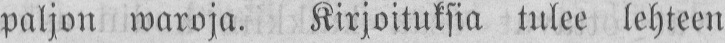paljon waroja. Kirjoituksia tulee lehteen
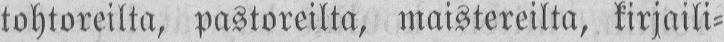tohtoreilta, pastoreilta, maistereilta, kirjaili-
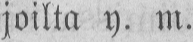joilta y. m.
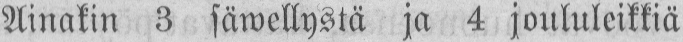Ainakin 3 säwellystä ja 4 joululeikkiä
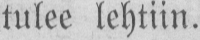tulee lehtiin.
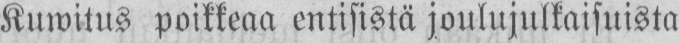Kuwitus poikkeaa entisistä joulujulkaisuista
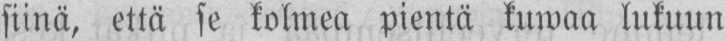siinä, että se kolmea pientä kuwaa lukuun
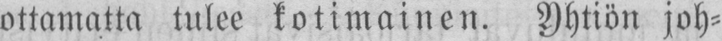ottamatta tulee kotimainen. Yhtiön joh-
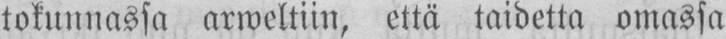tokunnassa arweltiin, että taidetta omassa
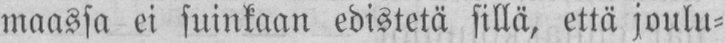maassa ei suinkaan edistetä sillä, että joulu-
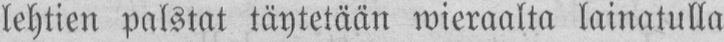lehtien palstat täytetään wieraalta lainatulla
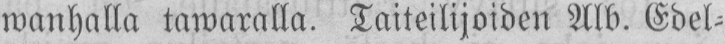wanhalla tawaralla. Taiteilijoiden Alb. Edel-
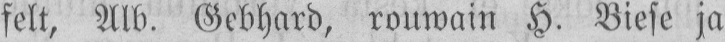felt, Alb. Gebhard, rouwain H. Biese ja
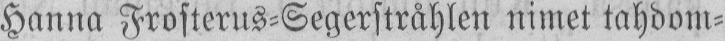Hanna Frosterus-Segerstråhlen nimet tahdom-
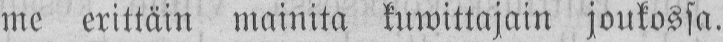me erittäin mainita kuwittajain joukossa.
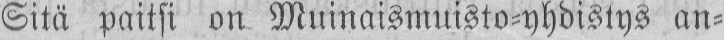Sitä paitsi on Muinaismuisto-yhdistys an-
